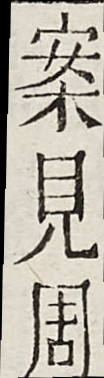案見周
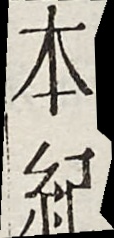本紀
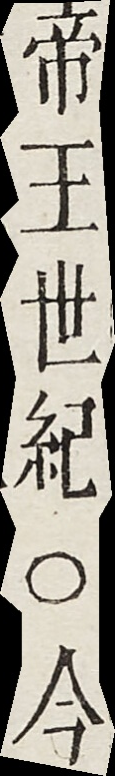帝王世紀○今
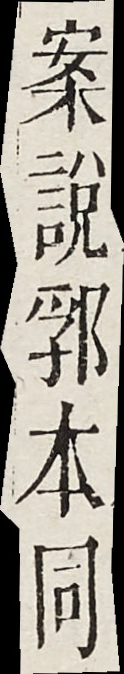案說郛本同
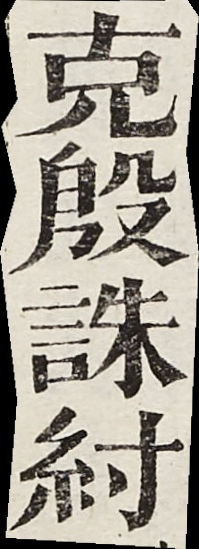克殷誅紂
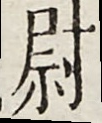尉
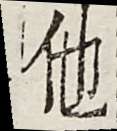他
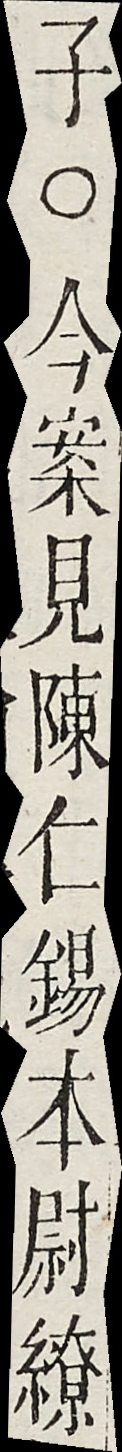子○今案見陳仁錫本尉繚
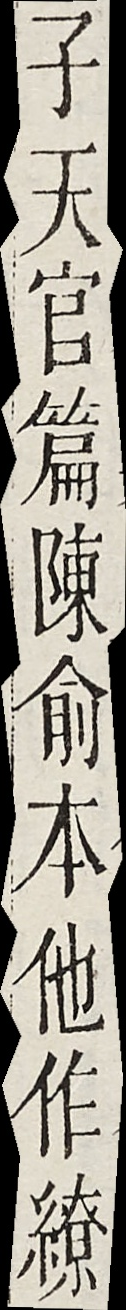子天官篇陳俞本他作繚
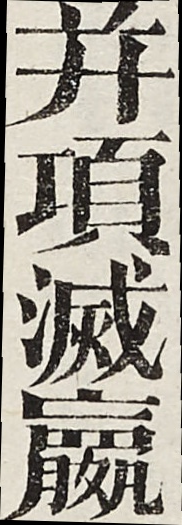并項滅嬴
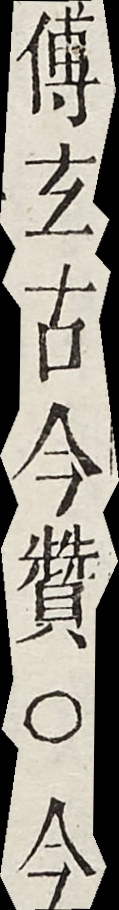傅玄古今贊○今
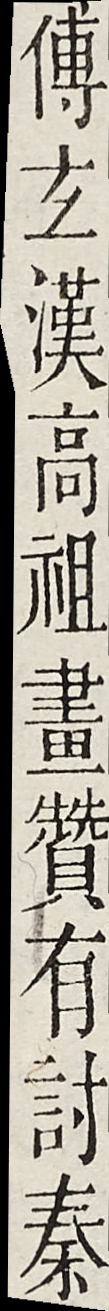傳玄漢高祖畫贊有討秦
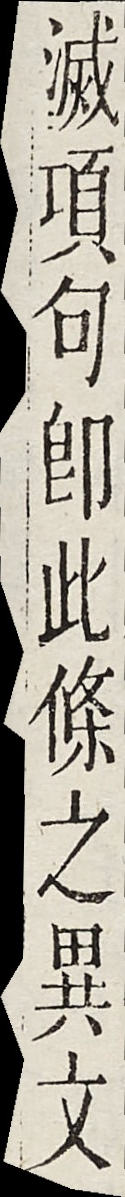滅項句即此條之異文
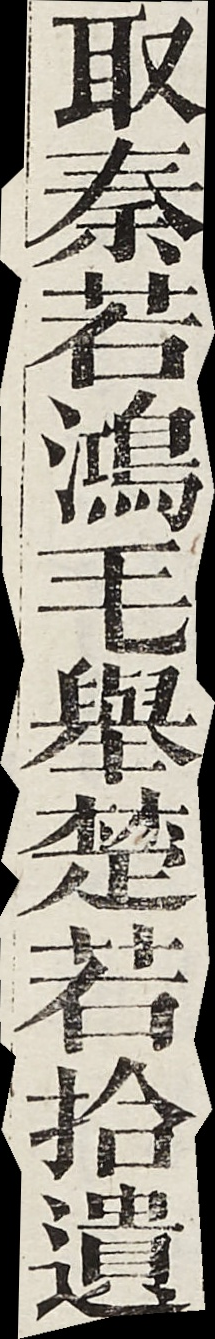取秦若鴻毛舉楚若拾遺
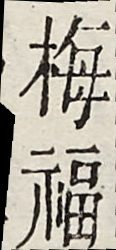梅福
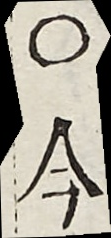○今
